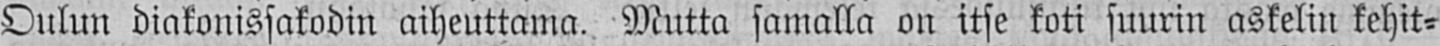Oulun diakonissakodin aiheuttama. Mutta samalla on itse koti suurin askelin kehit-
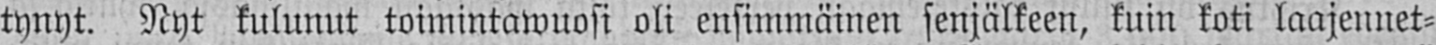tynyt. Nyt kulunut toimintawuosi oli ensimmäinen senjälkeen, kuin koti laajennet-
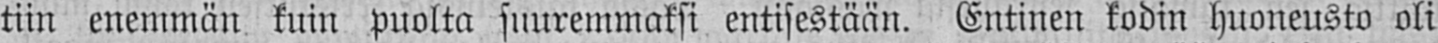tiin enemmän kuin puolta suuremmaksi entisestään. Entinen kodin huoneusto oli
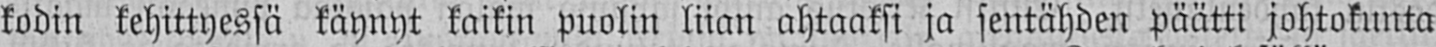kodin kehittyessä käynyt kaikin puolin liian ahtaaksi ja sentähden päätti johtokunta
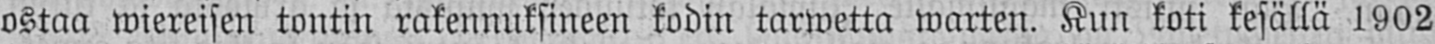ostaa wiereisen tontin rakennuksineen kodin tarwetta warten. Kun koti kesällä 1902
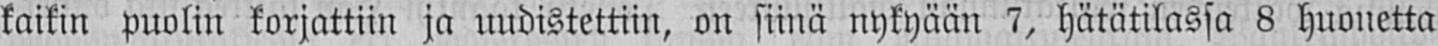kaikin puolin korjattiin ja uudistettiin, on siinä nykyään 7, hätätilassa 8 huonetta
